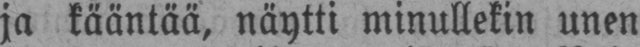ja kääntää, näytti minullekin unen
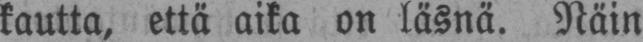kautta, että aika on läsnä. Näin
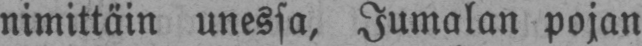nimittäin unessa, Jumalan pojan
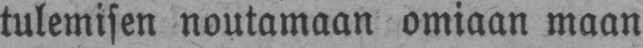tulemisen noutamaan omiaan maan
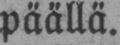päällä.
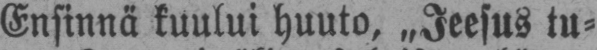Ensinnä kuului huuto, „Jeesus tu-
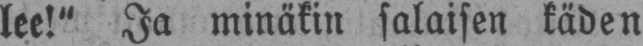lee!" Ja minäkin salaisen käden
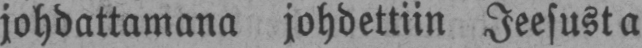johdattamana johdettiin Jeesusta
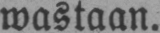wastaan.
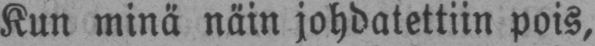Kun minä näin johdatettiin pois,
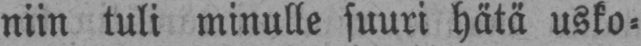niin tuli minulle suuri hätä usko-
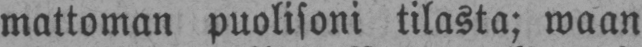mattoman puolisoni tilasta; waan
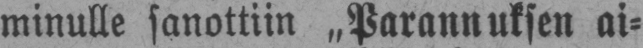minulle sanottiin „Parannuksen ai-
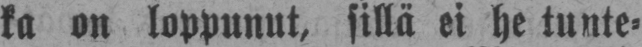ka on loppunut, sillä ei he tunte-
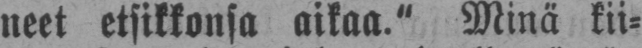neet etsikkonsa aikaa." Minä kii-
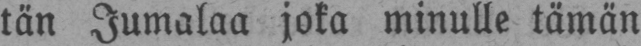tän Jumalaa joka minulle tämän
